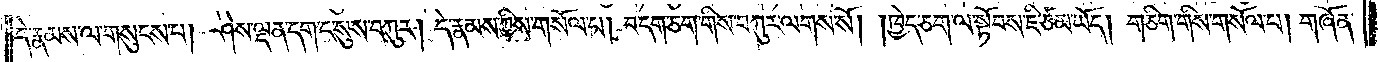དེ་རྣམས་ལ་གསུངས་པ། ཤེས་ལྡན་དག་ང་སུས་བཀུར། དེ་རྣམས་ཀྱིས་གསོལ་པ། བདག་ཅག་གིས་བཀུར་ལགས་སོ། །ཁྱེད་ཅག་ལ་སྟོབས་ཇི་ཙམ་ཡོད། གཅིག་གིས་གསོལ་པ། གཞོན་
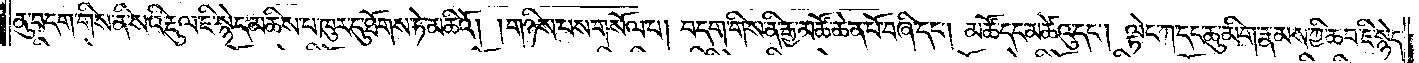ནུ་བདག་གིས་ནི་སའི་རྡུལ་ཇི་སྙེད་མཆིས་པ་ཁུར་དུ་ཐོགས་ཏེ་མཆིའོ། །གཉིས་པས་གསོལ་པ། བདག་གིས་ནི་རྒྱ་མཚོ་ཆེན་པོ་བཞི་དང༌། མཚོ་དང་མཚེའུ་དང༌། ལྟེང་ཀ་དང་ཆུ་མིག་རྣམས་ཀྱི་ཆབ་ཇི་སྙེད་
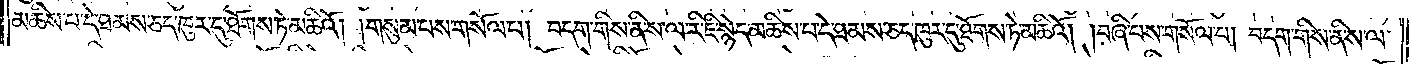མཆིས་པ་དེ་ཐམས་ཅད་ཁུར་དུ་ཐོགས་ཏེ་མཆིའོ། །གསུམ་པས་གསོལ་པ། བདག་གིས་ནི་ས་ལ་རི་ཇི་སྙེད་མཆིས་པ་དེ་ཐམས་ཅད་ཁུར་དུ་ཐོགས་ཏེ་མཆིའོ། །བཞི་པས་གསོལ་པ། བདག་གིས་ནི་ས་ལ་
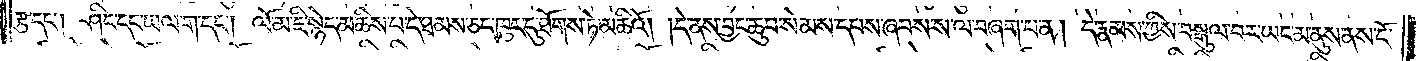རྩྭ་དང༌། ཤིང་དང་ཡལ་ག་དང༌། ལོ་མ་ཇི་སྙེད་མཆིས་པ་དེ་ཐམས་ཅད་ཁུར་དུ་ཐོགས་ཏེ་མཆིའོ། །དེ་ནས་བྱང་ཆུབ་སེམས་དཔས་ཞབས་ས་ལ་བཞག་པ་ན། དེ་རྣམས་ཀྱིས་བསྒུལ་བར་ཡང་མ་ནུས་ནས་ངོ་
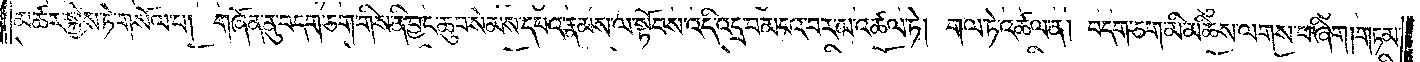མཚར་སྐྱེས་ཏེ་གསོལ་པ། གཞོན་ནུ་བདག་ཅག་གིས་ནི་བྱང་ཆུབ་སེམས་དཔའ་རྣམས་ལ་སྟོབས་འདི་འདྲ་བ་མངའ་བར་མ་འཚལ་ཏེ། གལ་ཏེ་འཚལ་ན། བདག་ཅག་མི་མཆིས་ལགས་པ་ཞིག །གཏམ་
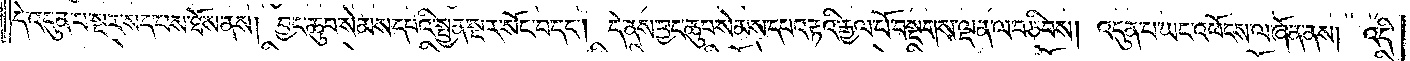དེ་འདུན་པ་སྔར་སད་པས་ཐོས་ནས། བྱང་ཆུབ་སེམས་དཔའི་སྤྱན་སྔར་སོང་བ་དང༌། དེ་ནས་བྱང་ཆུབ་སེམས་དཔའ་རྟའི་རྒྱལ་པོ་བསྔགས་ལྡན་ལ་བཅིབས། འདུན་པ་ཡང་འཕོངས་ལ་ཞོན་ནས། འདི་
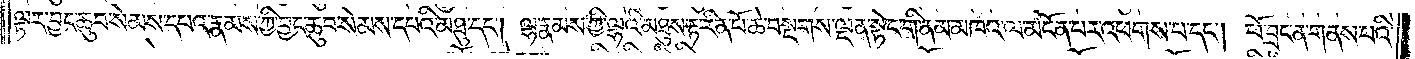ལྟར་བྱང་ཆུབ་སེམས་དཔའ་རྣམས་ཀྱི་བྱང་ཆུབ་སེམས་དཔའི་མཐུ་དང༌། ལྷ་རྣམས་ཀྱི་ལྷའི་མཐུས་རྟ་རིན་པོ་ཆེ་བསྔགས་ལྡན་སྟེང་གི་ནམ་མཁའ་ལ་མངོན་པར་འཕགས་པ་དང༌། ཕོ་བྲང་ན་གནས་པའི་
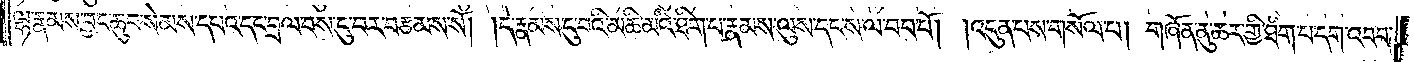ལྷ་རྣམས་བྱང་ཆུབ་སེམས་དཔའ་དང་བྲལ་བས་དུ་བར་བརྩམས་སོ། །དེ་རྣམས་དུ་བའི་མཆི་མའི་ཐིག་པ་རྣམས་ལུས་དང་ས་ལ་བབ་པོ། །འདུན་པས་གསོལ་པ། གཞོན་ནུ་ཆར་གྱི་ཐིག་པ་དག་འབབ་
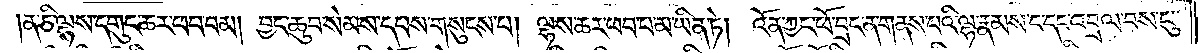ན་ཅི་ལྷས་དགུང་ཆར་ཕབ་བམ། བྱང་ཆུབ་སེམས་དཔས་གསུངས་པ། ལྷས་ཆར་ཕབ་པ་མ་ཡིན་ཏེ། འོན་ཀྱང་ཕོ་བྲང་ན་གནས་པའི་ལྷ་རྣམས་ང་དང་འབྲལ་བས་ངུ་
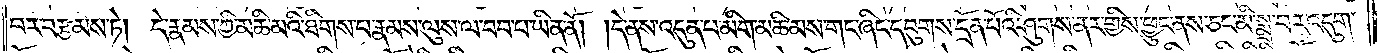བར་བརྩམས་ཏེ། དེ་རྣམས་ཀྱི་མཆི་མའི་ཐིགས་པ་རྣམས་ལུས་ལ་བབ་པ་ཡིན་ནོ། །དེ་ནས་འདུན་པ་མིག་མཆིམས་གང་ཞིང་དབུགས་དྲོན་པོའི་ཤུགས་ནར་གྱིས་ཕྱུང་ནས་ཅང་མི་སྨྲ་བར་འདུག་
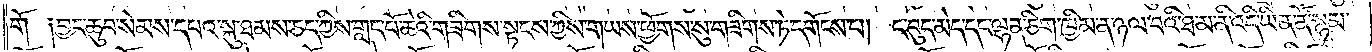གོ༑ བྱང་ཆུབ་སེམས་དཔའ་སྐུ་ཐམས་ཅད་ཀྱིས་གླང་པོ་ཆེའི་གཟིགས་སྟངས་ཀྱིས་གཡས་ཕྱོགས་སུ་གཟིགས་ཏེ་དགོངས་པ། ང་བུད་མེད་དང་ལྷན་ཅིག་ཁྱིམ་ན་ཉལ་བའི་ཐ་མ་ནི་འདི་ཡིན་ནོ་སྙམ་
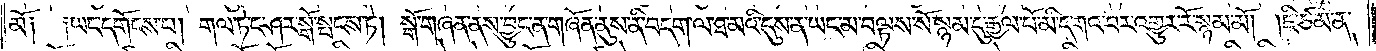མོ༑ ༑ཡང་དགོངས་པ། གལ་ཏེ་ང་ཤར་སྒོ་སྤངས་ཏེ། སྒོ་གཞན་ནས་བྱུང་ན་གཞོན་ནུས་ནི་བདག་ལ་ཐ་མའི་དུས་ན་ཡང་མ་བལྟས་སོ་སྙམ་དུ་རྒྱལ་པོ་མི་དགའ་བར་འགྱུར་རོ་སྙམ་མོ། །ཇི་ཙམ་ན་
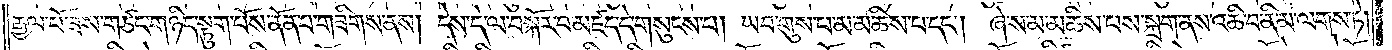རྒྱལ་པོ་ཟས་གཙང་གཉིད་སྟུག་པོས་ནོན་པ་གཟིགས་ནས། དེས་དེ་ལ་བསྐོར་བ་མཛད་དེ་གསུངས་པ། ཡབ་གུས་པ་མ་མཆིས་པ་དང༌། ཞེ་ས་མ་མཆིས་པས་སྐྲག་ནས་འཆི་བ་ནི་མ་ལགས་ཏེ།
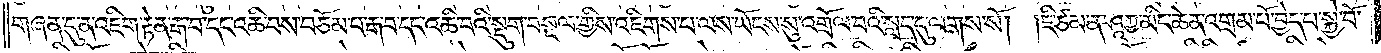གཞན་དུ་ན་འཇིག་རྟེན་རྒ་བ་དང་འཆི་བས་བཅོམ་པ་རྒ་བ་དང་འཆི་བའི་སྡུག་བསྔལ་གྱིས་འཇིགས་པ་ལས་ཡོངས་སུ་འགྲོལ་བའི་སླད་དུ་ལགས་སོ། །ཇི་ཙམ་ན་ཤཱཀྱ་མིང་ཆེན་འགྲམ་པོ་བྱེད་པ་སྐྱེ་བོ་
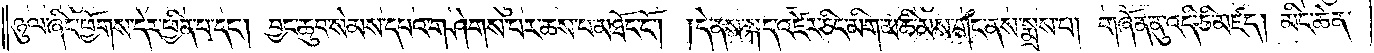ཉུལ་ཞིང་ཕྱོགས་དེར་ཕྱིན་པ་དང༌། བྱང་ཆུབ་སེམས་དཔའ་གཤེགས་པར་ཆས་པ་མཐོང་ངོ༌། །དེ་ནས་སྐད་འཛེར་ཅིང་མིག་མཆི་མས་གང་ནས་སྨྲས་པ། གཞོན་ནུ་འདི་ཅི་མཛད། མིང་ཆེན་
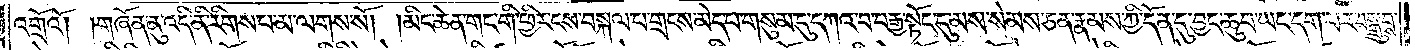འགྲོའོ། །གཞོན་ནུ་འདི་ནི་རིགས་པ་མ་ལགས་སོ། །མིང་ཆེན་གང་གི་ཕྱིར་ངས་བསྐལ་པ་གྲངས་མེད་པ་གསུམ་དུ་དཀའ་བ་བརྒྱ་སྟོང་དུ་མས་སེམས་ཅན་རྣམས་ཀྱི་དོན་དུ་བྱང་ཆུབ་ཡང་དག་པར་བསྒྲུབས་
